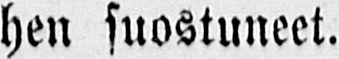hen suostuneet.
